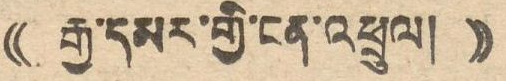(( རྒྱ་དམར་གྱི་ངན་འཕྲུལ། ))
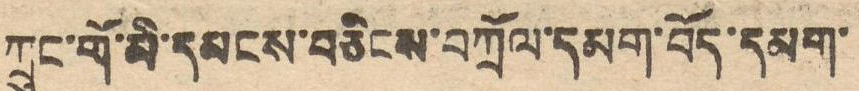ཀྲུང་གོ་མི་དམངས་བཅིངས་བཀྲོལ་དམག་བོད་དམག་
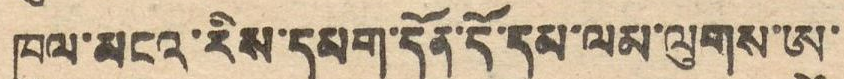ཁུལ་མངའ་རིས་དམག་དོན་དོ་དམ་ལམ་ལུགས་ཨུ་
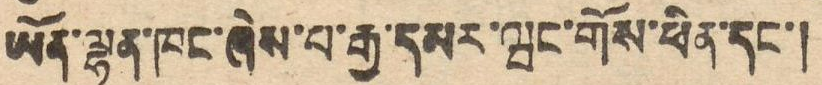ཡོན་ལྷན་ཁང་ཞེས་པ་རྒྱ་དམར་ཝང་གོས་ཕིན་དང་།
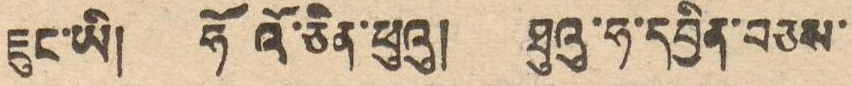ཇུང་ཡི། ཧོའོ་ཅིན་ཕུའུ། ཐུའུ་ཧ་དབྱིན་བཅས་
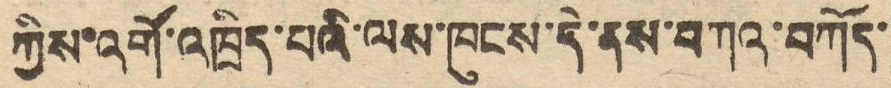ཀྱིས་འགོ་འཁྲིད་པའི་ལམ་ཁུངས་དེ་ནས་བཀའ་བཀོད་
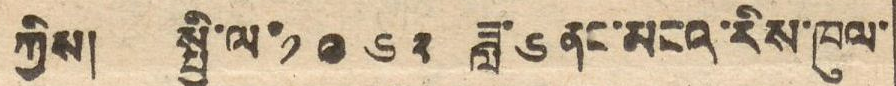ཀྱིས། སྤྱི་ལོ་༡༩༦༢ ཟླ་ ༦ ནང་མངའ་རིས་ཁུལ་
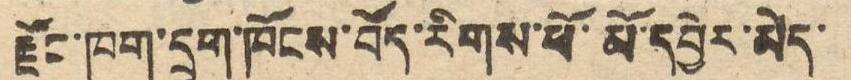རྫོང་ཁག་དྲུག་ཁོངས་བོད་རིགས་ཕོ་མོ་དབྱེར་མེད་
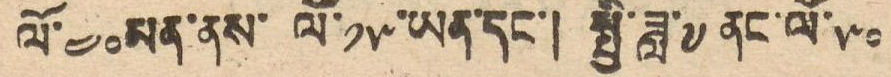ལོ་༤༠མན་ནས་ ལོ་༡༥ཡན་དང་། སྤྱི་ཟླ་༧ ནང་ལོ་༥༠
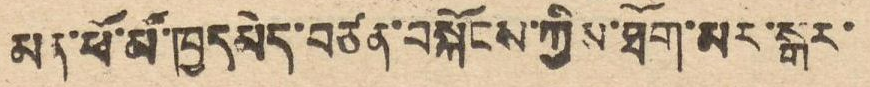མན་ཕོ་མོ་ཁྱདམེད་བཙན་བསྐོངས་ཀྱིས་ཐོག་མར་སྒར་
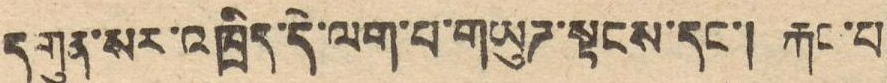དགུན་སར་འཁྲིད་དེ་ལག་པ་གཡུཊ་སྟངས་དང། རྐང་པ
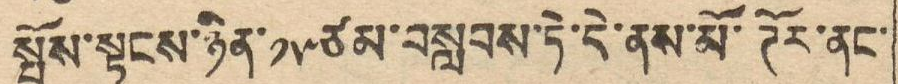སྤོས་སྟངས་ཉིན་༡༥ཙམ་བསླབས་ཏེ་དེ་ནས་མོ་ཊོར་ནང་
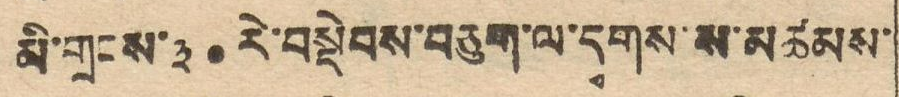མི་གྲངས་༣༠ རེ་བསྡེབས་བཅུག་ལ་དྭགས་ས་མཚམས་
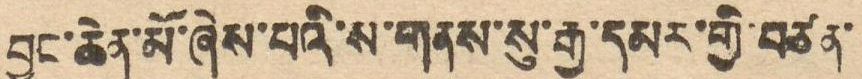བྱང་ཆེན་མོ་ཞེས་པའི་ས་གནས་སུ་རྒྱ་དམར་གྱི་བཙན་
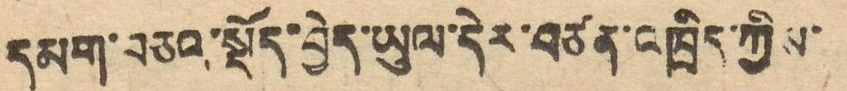དམག་བཅའ་སྡོད་བྱེད་ཡུལ་དེར་བཙན་འཁྲིད་ཀྱིས་
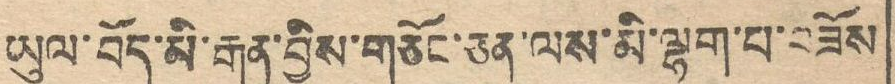ཡུལ་བོད་མི་རྒན་བྱིས་གཅོང་ཅན་ལས་མི་ལྷག་པ་བཟོས
